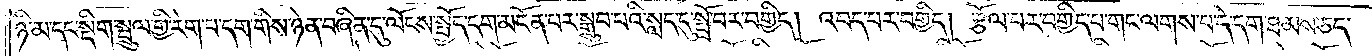ཉི་མ་དང་སྡིག་སྦྲུལ་གྱི་རེག་བ་དག་གིས་ཉེན་བཞིན་དུ་ལོངས་སྤྱོད་དག་མངོན་པར་སྒྲུབ་པའི་སླད་དུ་སྤྲོ་བར་བགྱིད། འབད་པར་བགྱིད། རྩོལ་པར་བགྱིད་པ་གང་ལགས་པ་དེ་དག་ཐམས་ཅད་
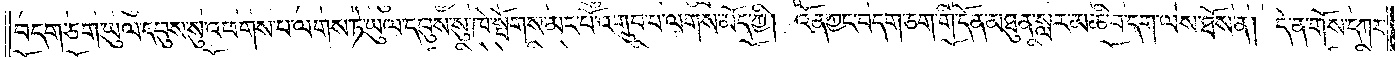བདག་ཅག་ཡུལ་དབུས་སུ་འཕགས་པ་ལགས་ཏེ་ཡུལ་དབུས་སུ་ཁེ་སྤོགས་མང་པོ་འགྲུབ་པ་ལགས་མོད་ཀྱི། འོན་ཀྱང་བདག་ཅག་གི་དོན་མཐུན་སླར་མཆི་བ་དག་ལས་ཐོས་ན། དེ་ན་གོས་དཀར་
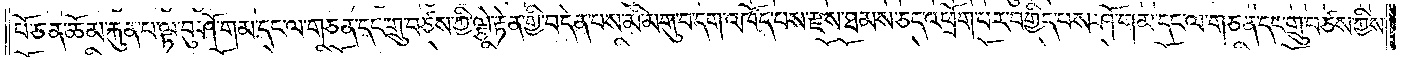པོ་ཅན་ཆོམ་རྐུན་པ་ལྟ་བུ་ཤོ་གམ་དང་ལ་གཅན་དང་གྲུ་བཙས་ཀྱི་ལྕེ་རྟེན་གྱི་བདེན་པས་མི་མགུ་བ་དག་འཁོད་པས་རྫས་ཐམས་ཅད་འཕྲོག་པར་བགྱིད་པས་ཤོ་གམ་དང་ལ་གཅན་དང་གྲུ་བཙས་ཀྱིས་
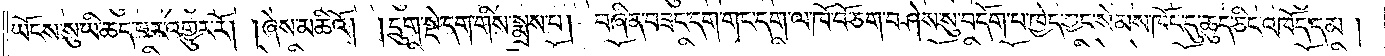ཡོངས་སུ་ཡི་ཆད་པར་འགྱུར་རོ། །ཞེས་མཆིའོ། །དྲུག་སྡེ་དག་གིས་སྨྲས་པ། བཞིན་བཟང་དག་གང་དག་ལ་ཁོ་བོ་ཅག་བཤེས་སུ་བདོག་པ་ཁྱེད་ཀྱང་སེམས་ཁོང་དུ་ཆུད་ཅིང་འཁོད་དམ།
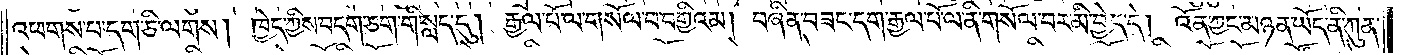འཕགས་པ་དག་ཅི་ལགས། ཁྱེད་ཀྱིས་བདག་ཅག་གི་སླད་དུ། རྒྱལ་པོ་ལ་གསོལ་བ་བགྱིའམ། བཞིན་བཟང་དག་རྒྱལ་པོ་ལ་ནི་གསོལ་བར་མི་བྱེད་དེ། འོན་ཀྱང་མཉན་ཡོད་ནི་ཀུན་
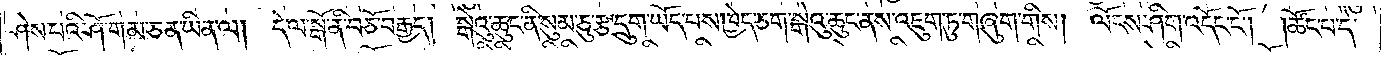ཤེས་པའི་ཤོ་གམ་ཅན་ཡིན་ལ། དེ་ལ་སྒོ་ནི་བཅོ་བརྒྱད། སྒེའུ་ཆུང་ནི་སུམ་ཅུ་རྩ་དྲུག་ཡོད་པས་ཁྱེད་ཅག་སྒེའུ་ཆུང་ནས་འཇུག་ཏུ་གཞུག་གིས། ལོངས་ཤིག་འདོང་ངོ༌། །ཚོང་པ་དེ་
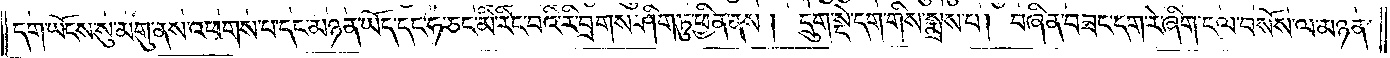དག་ཡོངས་སུ་མགུ་ནས་འཕགས་པ་དང་མཉན་ཡོད་དང་ཧ་ཅང་མི་རིང་བའི་རི་བྲགས་ཤིག་ཏུ་ཕྱིན་ནས།  དྲུག་སྡེ་དག་གིས་སྨྲས་པ། བཞིན་བཟང་དག་རེ་ཞིག་ངལ་བསོས་ལ་མཉན་
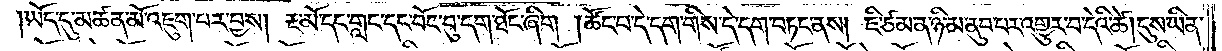ཡོད་དུ་མཚན་མོ་འཇུག་པར་བྱས། རྔ་མོ་དང་གླང་དང་བོང་བུ་དག་ཐོང་ཞིག །ཚོང་བ་དེ་དག་གིས་དེ་དག་བཏང་ནས། ཇི་ཙམ་ན་ཉི་མ་ནུབ་པར་འགྱུར་བ་དེའི་ཚེ། དུས་ཡིན་
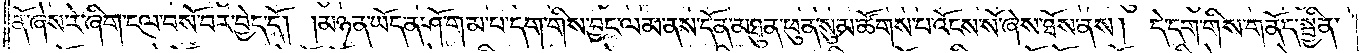ནོ་ཞེས་རེ་ཞིག་ངལ་བསོ་བར་བྱེད་དོ། །མཉན་ཡོད་ན་ཤོ་གམ་པ་དག་གིས་བྱང་ལམ་ནས་དོན་མཐུན་ཕུན་སུམ་ཚོགས་པ་འོངས་སོ་ཞེས་ཐོས་ནས། དེ་དག་གིས་གནོད་སྦྱིན་
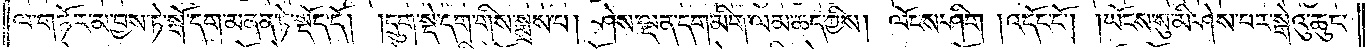ལ་གཏོར་མ་བྱས་ཏེ་སྒོ་དག་མནན་ཏེ་སྡོད་དོ། །དྲུག་སྡེ་དག་གིས་སྨྲས་པ། ཤེས་ལྡན་དག་མིག་ལམ་ཆད་ཀྱིས། ལོངས་ཤིག །འདོང་ངོ༌། །ཡོངས་སུ་མི་ཤེས་པར་སྒེའུ་ཆུང་
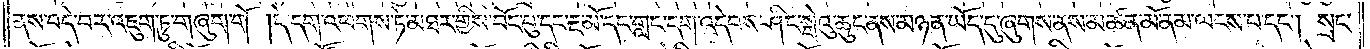ནས་བདེ་བར་འཇུག་ཏུ་གཞུག་གོ །དེ་དག་འཕགས་ཏེ་མཐར་གྱིས་བོང་བུ་དང་རྔ་མོ་དང་གླང་དག་འདེབས་ཤིང་སྒེའུ་ཆུང་ནས་མཉན་ཡོད་དུ་ཞུགས་ནས་མཚན་མོ་ནམ་ལངས་པ་དང༌། སྲང་
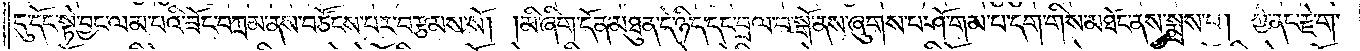དུ་དོང་སྟེ་བྱང་ལམ་པའི་ཟོང་བཀྲམ་ནས་བཙོངས་པར་བརྩམས་སོ། །མི་ཞིག་དོན་མཐུན་དེ་ཉིད་དང་བྲལ་བ་སྒོ་ནས་ཞུགས་པ་ཤོ་གམ་པ་དག་གིས་མཐོང་ནས་སྨྲས་པ། ཀྱེ་ནང་རྗེ་ག་
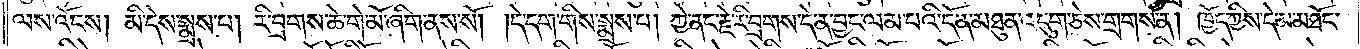ལས་འོངས། མི་དེས་སྨྲས་པ། རི་བྲགས་ཆེ་གེ་མོ་ཞིག་ནས་སོ། །དེ་དག་གིས་སྨྲས་པ། ཀྱེ་ནང་རྗེ་རི་བྲགས་དེ་ན་བྱང་ལམ་པའི་དོན་མཐུན་འདུག་ཅེས་གྲགས་ན། ཁྱོད་ཀྱིས་དེ་མ་མཐོང་
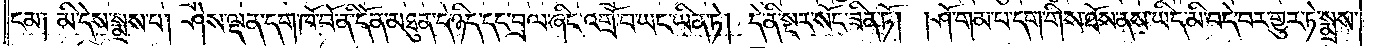ངམ༑ མི་དེས་སྨྲས་པ། ཤེས་ལྡན་དག་ཁོ་བོ་ནི་དོན་མཐུན་དེ་ཉིད་དང་བྲལ་ཞིང་འགྲོ་བ་ཡང་ཡིན་ཏེ། དེ་ནི་སྔར་སོང་ཟིན་ཏོ། །ཤོ་གམ་པ་དག་གིས་ཐོས་ནས་ཡིད་མི་བདེ་བར་གྱུར་ཏེ་སྨྲས་
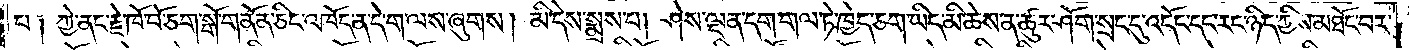པ༑ ཀྱེ་ནང་རྗེ་ཁོ་བོ་ཅག་སྒོ་གནོན་ཅིང་འཁོད་ན་དེ་ག་ལས་ཞུགས། མི་དེས་སྨྲས་པ། ཤེས་ལྡན་དག་གལ་ཏེ་ཁྱེད་ཅག་ཡིད་མི་ཆེས་ན་ཚུར་ཤོག་སྲང་དུ་འདོང་དང་རང་ཉིད་ཀྱིས་མཐོང་བར་
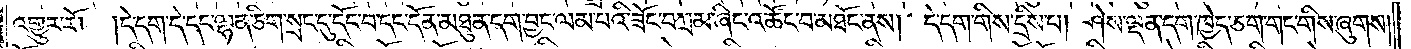འགྱུར་རོ། །དེ་དག་དེ་དང་ལྷན་ཅིག་སྲང་དུ་དོང་བ་དང་དོན་མཐུན་དག་བྱང་ལམ་པའི་ཟོང་བཀྲམ་ཞིང་འཚོང་བ་མཐོང་ནས། དེ་དག་གིས་དྲིས་པ། ཤེས་ལྡན་དག་ཁྱེད་ཅག་གང་གིས་ཞུགས།
